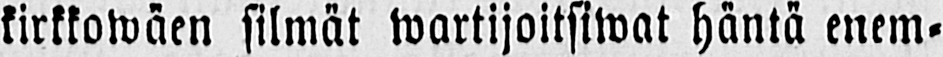kirkkowäen silmät wartijoitsiwat häntä enem-
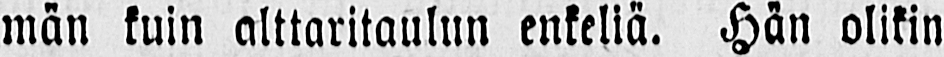män kuin alttaritaulun enkeliä. Hän olikin
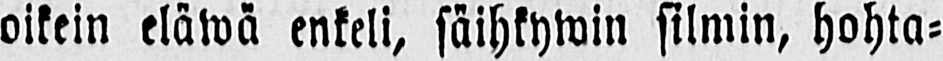oikein eläwä enkeli, säihkywin silmin, hohta-
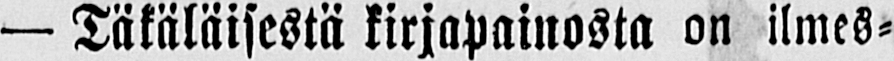—Täkäläisestä kirjapainosta on ilmes-
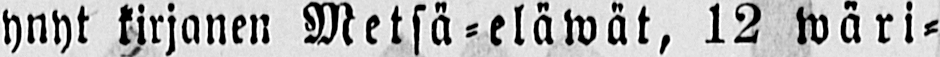tynyt kirjanen Metsä-eläwät, 12 wäri-
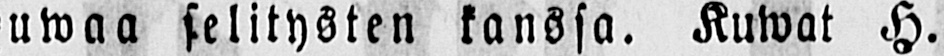kuwaa selitysten kanssa. Kuwat H.
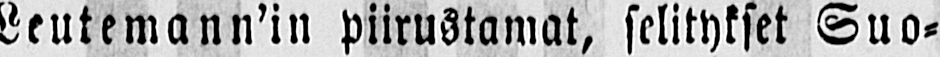Leutemann'in piirustamat, selitykset Suo-
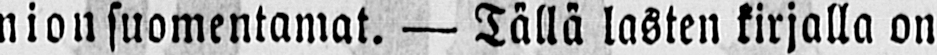nion suomentamat. — Tällä lasten kirjalla on
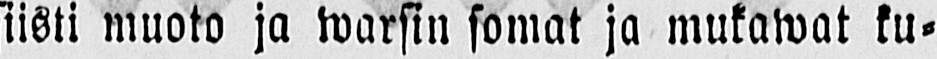siisti muoto ja warsin somat ja mukawat ku-
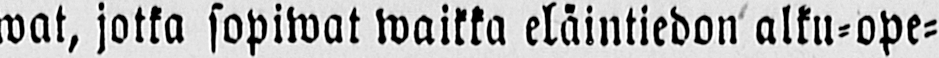wat, jotka sopiwat waikka eläintiedon alku-ope-
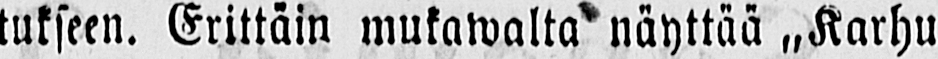tukseen. Erittäin mukawalta näyttää „Karhu
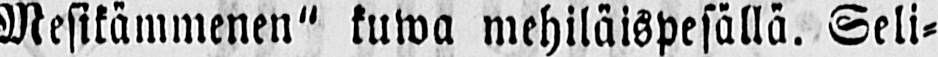Mesikämmenen" kuwa mehiläispesällä. Seli-
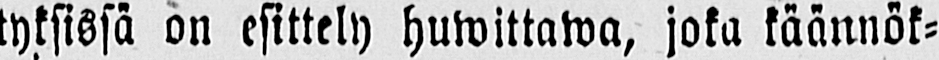tyksissä on esittely huwittatawa, joka käännök-
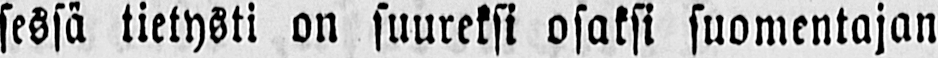sessä tietysti on suureksi osaksi suomentajan
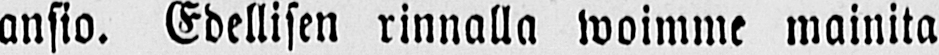ansio. Edellisen rinnalla woimme mainita
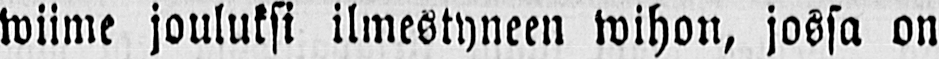wiime jouluksi ilmestyneen wihon, jossa on
